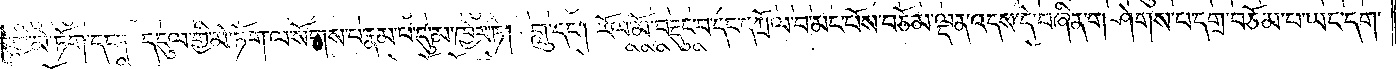གྱི་མེ་ཏོག་དང༌། དངུལ་གྱི་མེ་ཏོག་ལ་སོགས་པ་རྣམ་པ་དུ་མ་ཁྱེར་ཏེ། གླུ་དང༌། རོལ་མོ་བརྡུང་བ་དང་དཀྲོལ་བ་མང་པོས་བཅོམ་ལྡན་འདས་དེ་བཞིན་གཤེགས་པ་དགྲ་བཅོམ་པ་ཡང་དག་
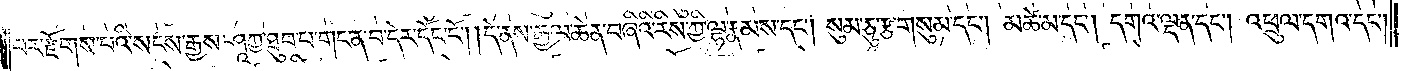པར་རྫོགས་པའི་སངས་རྒྱས་ཤཱཀྱ་ཐུབ་པ་གང་ན་བ་དེར་དོང་ངོ༌། །དེ་ནས་རྒྱལ་ཆེན་བཞིའི་རིས་ཀྱི་ལྷ་རྣམས་དང༌། སུམ་ཅུ་རྩ་གསུམ་དང༌། མཚེ་མ་དང༌། དགའ་ལྡན་དང༌། འཕྲུལ་དགའ་དང་
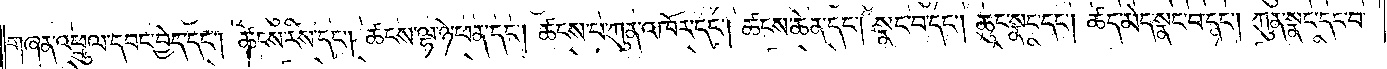གཞན་འཕྲུལ་དབང་བྱེད་དང༌། ཚངས་རིས་དང༌། ཚངས་ལྷ་ཉེ་ཕན་དང༌། ཚངས་པ་ཀུན་འཁོར་དང༌། ཚངས་ཆེན་དང༌། སྣང་བ་དང༌། ཆུང་སྣང་དང༌། ཚད་མེད་སྣང་བ་དང༌། ཀུན་སྣང་དང་བ་
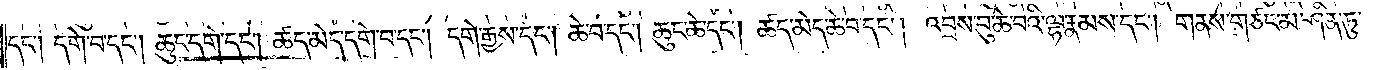དང༌། དགེ་བ་དང༌། ཆུང་དགེ་དང༌། ཚད་མེད་དགེ་བ་དང༌། དགེ་རྒྱས་དང༌། ཆེ་བ་དང༌། ཆུང་ཆེ་དང༌། ཚད་མེད་ཆེ་བ་དང༌། འབྲས་བུ་ཆེ་བའི་ལྷ་རྣམས་དང༌། གནས་གཙང་མ་ཤིན་ཏུ་
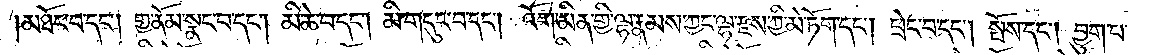མཐོང་བ་དང༌། གྱ་ནོམ་སྣང་བ་དང༌། མི་ཆེ་བ་དང༌། མི་གདུང་བ་དང༌། འོག་མིན་གྱི་ལྷ་རྣམས་ཀྱང་ལྷ་རྫས་ཀྱི་མེ་ཏོག་དང༌། ཕྲེང་བ་དང༌། སྤོས་དང༌། བྱུག་པ་
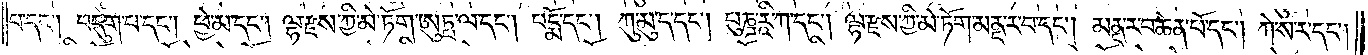པ་དང༌། བདུག་པ་དང༌། ཕྱེ་མ་དང༌། ལྷ་རྫས་ཀྱི་མེ་ཏོག་ཨུཏྤ་ལ་དང༌། པདྨོ་དང༌། ཀུ་མུ་ད་དང༌། པུཎྜ་རཱི་ཀ་དང༌། ལྷ་རྫས་ཀྱི་མེ་ཏོག་མནྡ་ར་བ་དང༌། མནྡ་ར་བ་ཆེན་པོ་དང༌། ཀེ་ས་ར་དང༌།
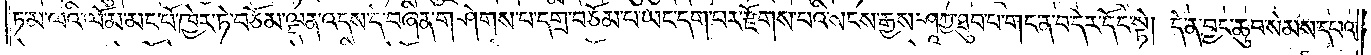ཏ་མ་ལའི་ལོ་མ་མང་པོ་ཁྱེར་ཏེ་བཅོམ་ལྡན་འདས་དེ་བཞིན་གཤེགས་པ་དགྲ་བཅོམ་པ་ཡང་དག་པར་རྫོགས་པའི་སངས་རྒྱས་ཤཱཀྱ་ཐུབ་པ་གང་ན་བ་དེར་དོང་སྟེ། དེ་ན་བྱང་ཆུབ་སེམས་དཔའ་
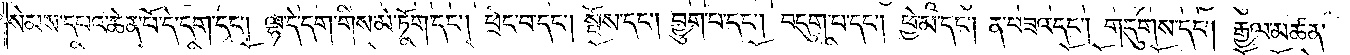སེམས་དཔའ་ཆེན་པོ་དེ་དག་དང༌། ལྷ་དེ་དག་གིས་མེ་ཏོག་དང༌། ཕྲེང་བ་དང༌། སྤོས་དང༌། བྱུག་པ་དང༌། བདུག་པ་དང༌། ཕྱེ་མ་དང༌། ན་བཟའ་དང༌། གདུགས་དང༌། རྒྱལ་མཚན་
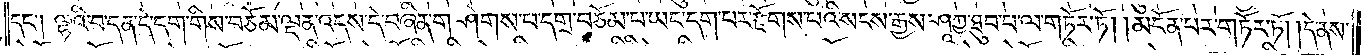དང༌། ལྷའི་བ་དན་དེ་དག་གིས་བཅོམ་ལྡན་འདས་དེ་བཞིན་གཤེགས་པ་དགྲ་བཅོམ་པ་ཡང་དག་པར་རྫོགས་པའི་སངས་རྒྱས་ཤཱཀྱ་ཐུབ་པ་ལ་གཏོར་ཏོ། །མངོན་པར་གཏོར་ཏོ། །དེ་ནས་
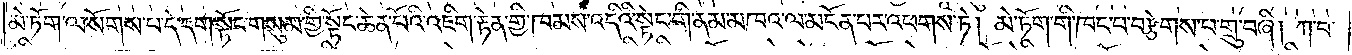མེ་ཏོག་ལ་སོགས་པ་དེ་དག་སྟོང་གསུམ་གྱི་སྟོང་ཆེན་པོའི་འཇིག་རྟེན་གྱི་ཁམས་འདིའི་སྟེང་གི་ནམ་མཁའ་ལ་མངོན་པར་འཕགས་ཏེ། མེ་ཏོག་གི་ཁང་པ་བརྩེགས་པ་གྲུ་བཞི། ཀ་བ་
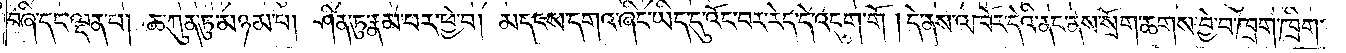བཞི་དང་ལྡན་པ། ཆ་ཀུན་ཏུ་མཉམ་པ། ཤིན་ཏུ་རྣམ་པར་ཕྱེ་བ། མདངས་དགའ་ཞིང་ཡིད་དུ་འོང་བར་རེད་དེ་འདུག་གོ །དེ་ནས་འཁོར་དེའི་ནང་ནས་སྲོག་ཆགས་བྱེ་བ་ཁྲག་ཁྲིག་
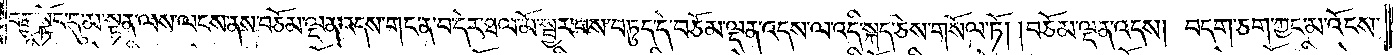བརྒྱ་སྟོང་དུ་མ་སྟན་ལས་ལངས་ནས་བཅོམ་ལྡན་འདས་གང་ན་བ་དེར་ཐལ་མོ་སྦྱར་བས་བཏུད་དེ་བཅོམ་ལྡན་འདས་ལ་འདི་སྐད་ཅེས་གསོལ་ཏོ། །བཅོམ་ལྡན་འདས། བདག་ཅག་ཀྱང་མ་འོངས་
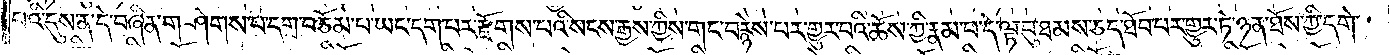པའི་དུས་ན་དེ་བཞིན་གཤེགས་པ་དགྲ་བཅོམ་པ་ཡང་དག་པར་རྫོགས་པའི་སངས་རྒྱས་ཀྱིས་གང་བརྙེས་པར་གྱུར་པའི་ཆོས་ཀྱི་རྣམ་པ་དེ་ལྟ་བུ་ཐམས་ཅད་ཐོབ་པར་གྱུར་ཏེ་ཉན་ཐོས་ཀྱི་དགེ་
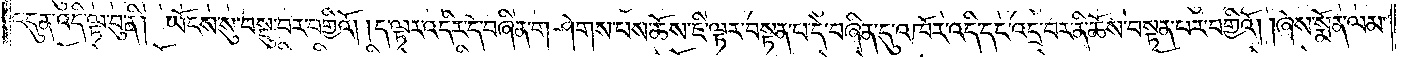འདུན་འདི་ལྟ་བུ་ནི། ཡོངས་སུ་བསྡུ་བར་བགྱིའོ། །ད་ལྟར་འདིར་དེ་བཞིན་གཤེགས་པས་ཆོས་ཇི་ལྟར་བསྟན་པ་དེ་བཞིན་དུ་འཁོར་འདི་དང་འདྲ་བར་ནི་ཆོས་བསྟན་པར་བགྱིའོ། །ཞེས་སྨོན་ལམ་
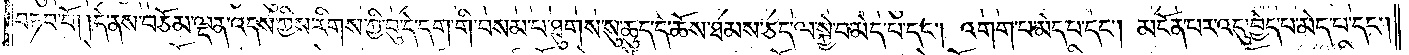བཏབ་པོ། །དེ་ནས་བཅོམ་ལྡན་འདས་ཀྱིས་རིགས་ཀྱི་བུ་དེ་དག་གི་བསམ་པ་ཐུགས་སུ་ཆུད་དེ་ཆོས་ཐམས་ཅད་ལ་སྐྱེ་བ་མེད་པ་དང༌། འགག་པ་མེད་པ་དང༌། མངོན་པར་འདུ་བྱེད་པ་མེད་པ་དང༌།
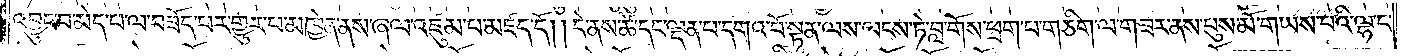འབྱུང་བ་མེད་པ་ལ་བཟོད་པར་གྱུར་པ་མཁྱེན་ནས་ཞལ་འཛུམ་པ་མཛད་དོ། །དེ་ནས་ཚེ་དང་ལྡན་པ་དགའ་བོ་སྟན་ལས་ལངས་ཏེ་བླ་གོས་ཕྲག་པ་གཅིག་ལ་གཟར་ནས་པུས་མོ་གཡས་པའི་ལྷ་ང་
